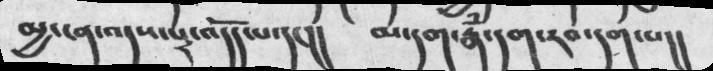མྱ་ངན་འདས་པར་འདོད་པ་དང།།  མ་དག་རྣཾ་དག་རབ་དག་པ།།
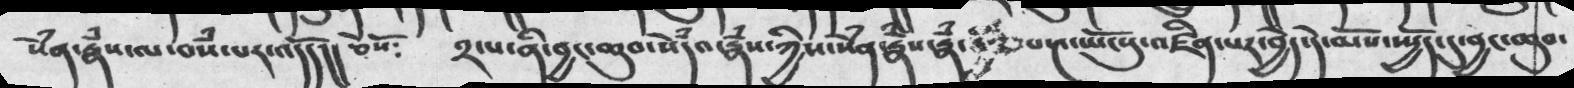སེཾན་རྣཾས་ལ་བསཾ་པར་འདོད།།  ཅེསོ༴  ༢་པ་ནི་བྱང་ཆུབ་སེཾདའ་རྣཾས་ཀྱིས་སེཾན་རྣཾན་རྣཾ་  པ་༤་ཡོངསུ་འཛིན་པར་བྱེད་དེ་མོས་སྤྱོད་དུ་བྱང་ཆུབ་
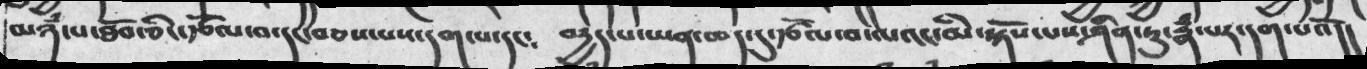མཉཾ་པ་ཐོབ་ཅིང་རྩོལ་བ་དང་བཅས་པས་དག་པ་དང༴    བདྱད་པ་ཡན་ཆད་དུ་རྩོལ་བ་ལའང་མི་སྟོས་པས་ཤིན་ཏུ་རྣཾ་པར་དག་པའོ།།
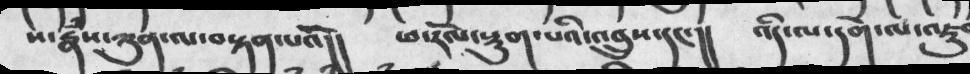ས་རྣྃས་ཀུན་ལ་བསྟན་པའོ།།   ཕ་རོལ་སྡུག་པའི་འབྲུས་དང་།།   འདི་ལ་དགེ་ལ་འཇུག
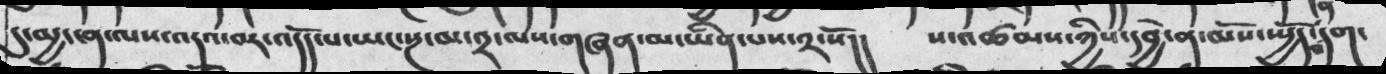དུ་མྱ་ངན་ལས་འདའ་བར་འདོད་པ་ཡང་སྔ་མ་༢་ལས་གཞན་མ་ཡིན་པས་༢་སོ།།  ས་འཚམས་ཀྱིས་དབྱེ་ན་མོས་སྤྱོད་པ་དག་
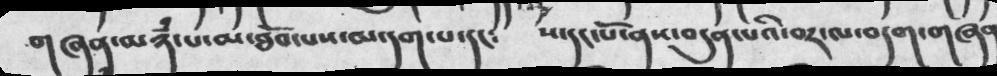གཞན་མཉཾ་པ་མ་ཐོབ་པས་མ་དག་པ་དང༴    ས་དང་པོ་ནས་བདུན་པའི་བར་ལ་བདག་གཞན་
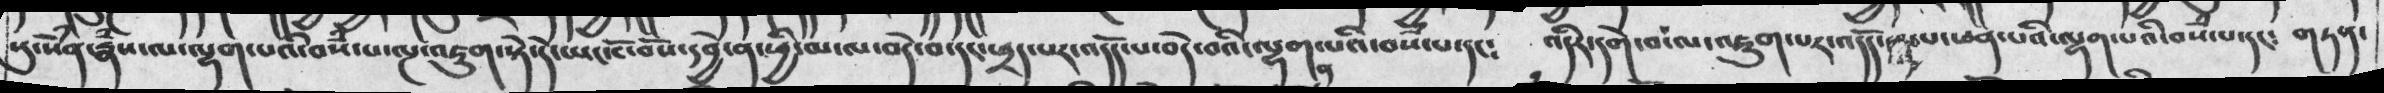སུ་སེཾན་རྣཾས་ལ་ལྷག་པའི་བསཾ་པ་ལྔ་འཇུག་སྟེ་དེ་ཡང་ངོ་བོས་དབྱེ་ན་ཕྱི་མ་ལ་བདེ་བ་དང་ཕྲད་པར་འདོད་པ་བདེ་བའི་ལྷག་པའི་བསཾ་པ་དང༴  འདིར་དགེ་བ་ལ་འཇུག་པར་འདོད་  པ་ཕན་པའི་ལྷག་པའི་བསཾ་པ་དང༴  གཏན་
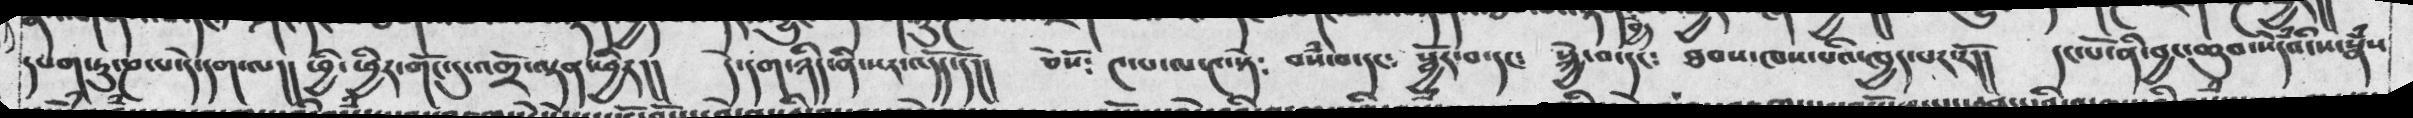དཔག་ཏུ་ཎ་པ་དེ་དག་ལ།།  ཕྱི་ཕྱིར་གོང་དུ་འགྲོ་ལྡན་ཕྱིར།།  དེ་དག་ཉིད་ནི་སར་འདོད་དོ།།  ཅེསོ༴  ༤་པ་ལ་༤་སྟེ༴   བསཾ་པ་དང༴ སྦྱོར་བ་དང༴  སྐྱེ་བ་དང༴  ཐབས་ཁས་པའི་ཁྱད་པར་རོ།།  དང་པོ་ནི་བྱང་ཆུབ་སེཾདའི་ས་རྣཾས
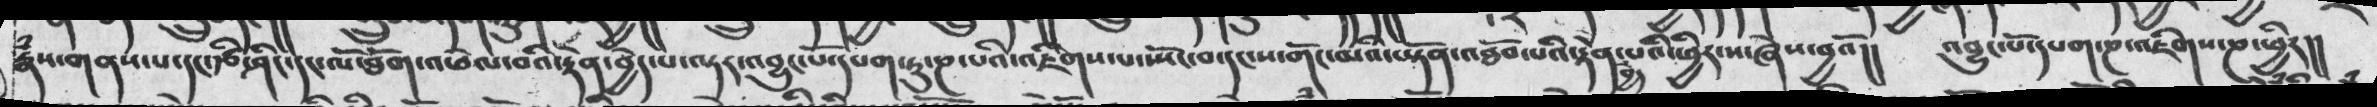རྣཾས་གནས་པ་དང་རྩི་ཤིང་དང་ལོ་ཐོག་འཕེལ་བའི་རྟེན་བྱེད་པ་ལྟར་འབྱུང་པོ་དཔག་ཏུ་ཎ་པའི་འཇིགས་པ་སྤོང་བ་དང་ས་གོང་མའི་ཡྟོན་འཐོབ་པའི་རྟེན་བྱེད་པའི་ཕྱིར་ས་ཞེས་བྱའོ།། འབྱུང་པོ་དཔག་ཎ་འཇིགས་ཎ་ཕྱིར།།
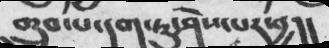གྲུབ་པ་དག་ཏུ་ཤེས་པར་བྱ།།
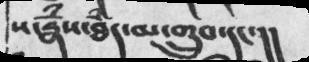ས་རྣཾས་ཐཾད་མ་གྲུབ་དང་།།
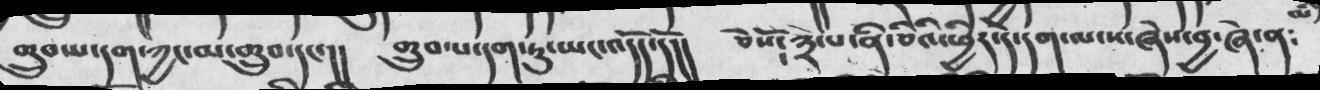གྲུབ་པ་དག་ཀྱང་མ་གྲུབ་དང་།།  གྲུབ་པ་དག་ཏུ་སྤང་འདོད་དོ།།  ཅེསོ༴༣་པ་ནི་ཅིའི་ཕྱིར་དེ་དག་ལ་ས་ཞེས་བྱ་ཞེ་ན༴
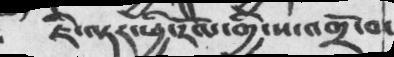ཇི་ལྟར་ཕྱི་རོལ་གྱི་ས་འགྲོ་བ་
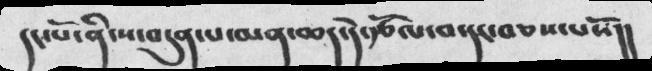དང་པོ་ནི་ས་བདུན་པ་མན་ཆད་དེ་རྩོལ་བ་དང་བཅས་པའོ།།
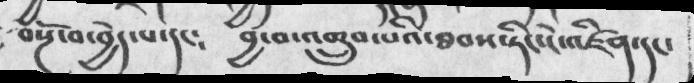བསྔོ་བ་བྱེད་པ་དང༴      བྱ་བ་འགྲུབ་པའི་ཐབས་ཏིང་ངེ་འཛིན་དང་
